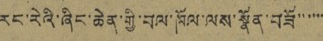རང་རེའི་ཞིང་ཆེན་གྱི་བལ་ཁོལ་ལས་སྣོན་བཟོ་་་་་་
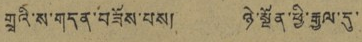གྲྭའི་ས་གདན་བཟོས་པས། ཉེ་སྔོན་ཕྱི་རྒྱལ་དུ་
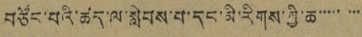བཙོང་པའི་ཚད་ལ་སླེབས་པ་དང་མི་རིགས་ཀྱི་ཆ་་་་་་་་
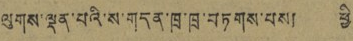ལུགས་ལྡན་པའི་ས་གདན་ཁྲ་ཁྲ་བཏགས་པས། ཕྱི་
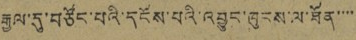རྒྱལ་དུ་བཙོང་པའི་དངོས་པའི་འབྱུང་ཁུངས་ལ་ཐོན་་་་
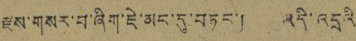རྫས་གསར་བ་ཞིག་ཇེ་མང་དུ་བཏང་། འདི་འདྲའི
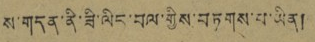ས་གདན་ནི་ཟི་ལིང་བལ་གྱིས་བཏགས་པ་ཡིན།
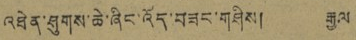འཐེན་ཤུགས་ཆེ་ཞིང་འོད་བཟང་གཤིས། རྒྱལ
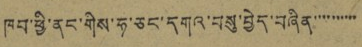ཁབ་ཕྱི་ནང་གིས་ཧ་ཅང་དགའ་བསུ་བྱེད་བཞིན་་་་་་་་་་
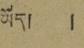ཡོད། །
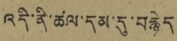འདི་ནི་ཚལ་དམ་དུ་བརྙེད
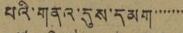པའི་གནའ་དུས་དམག་་་་་་་
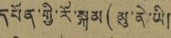དཔོན་གྱི་རོ་སྐམ(མུ་ནེ་ཡི།
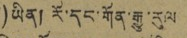)ཡིན། རོ་དང་གོན་རྒྱུ་རུལ
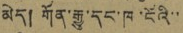མེད། གོན་རྒྱུ་དང་ཁ་ངོའི་་
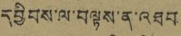དབྱིབས་ལ་བལྟས་ན་འཐབ
